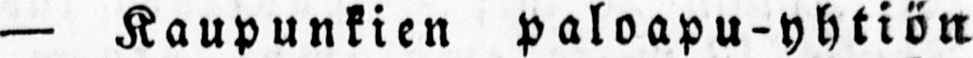— Kaupunkien paloapu-yhtiön
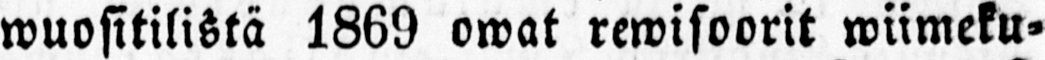wuositilistä 1869 owat rewisoorit wiimeku-
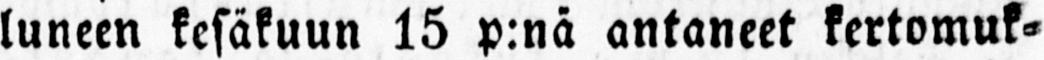luneen kesäkuun 15 p:nä antaneet kertomuk-
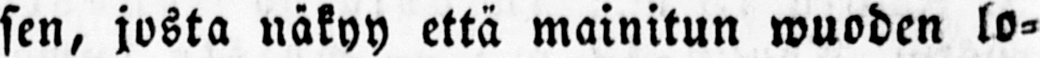sen, josta näkyy että mainitun wuoden lo-
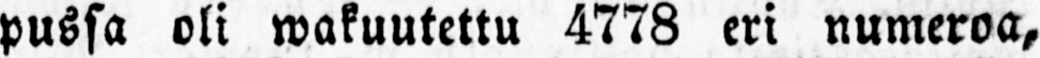pussa oli wakuutettu 4778 eri numeroa,
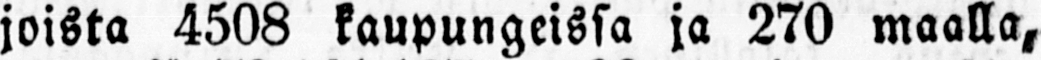joista 4508 kaupungeissa ja 270 maalla,
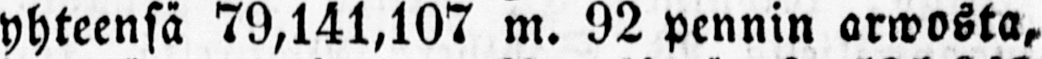yhteensä 79,141,107 m. 92 pennin arwosta,
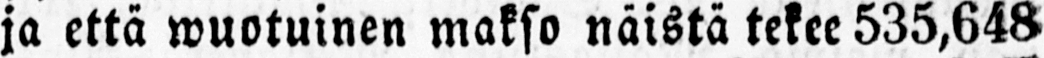ja että wuotuinen makso näistä tekee 535,648
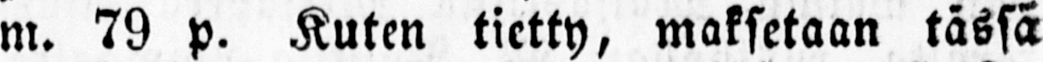m. 79 p. Kuten tietty, maksetaan tässä
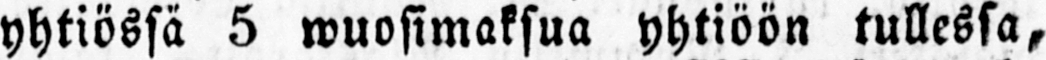yhtiössä 5 wuosimaksua yhtiöön tullessa,
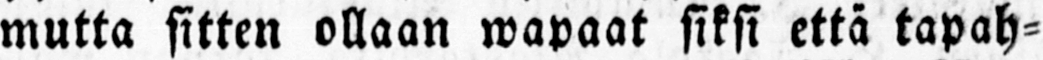mutta sitten ollaan wapaat siksi että tapah-
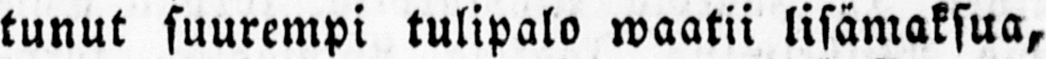tunut suurempi tulipalo waatii lisämaksua,
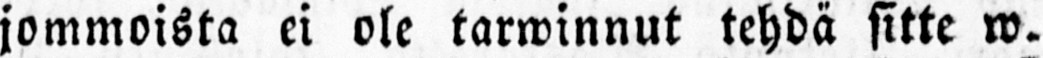jommoista ei ole tarwinnut tehdä sitte w.
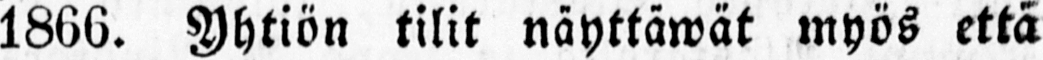1866. Yhtiön tilit näyttäwät myös että
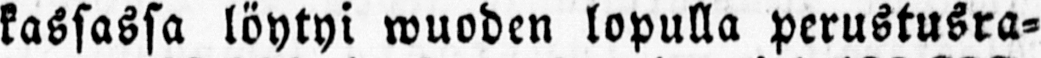kassassa löytyi wuoden lopulla perustusra-
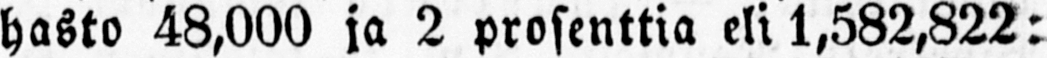hasto 48,000 ja 2 prosenttia eli 1,582,822:
